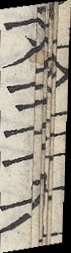文三十六
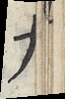六
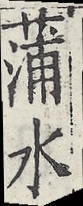蒲水
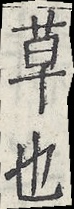草也
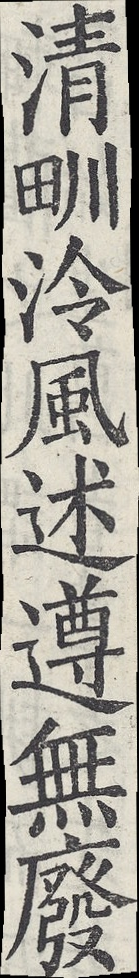清甽泠風述遵無廢
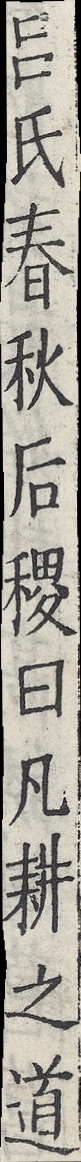呂氏春秋后稷曰凡耕之道
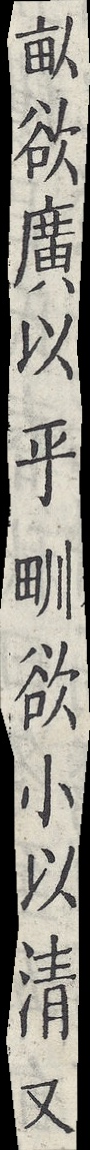畝欲廣以平甽欲小以清又
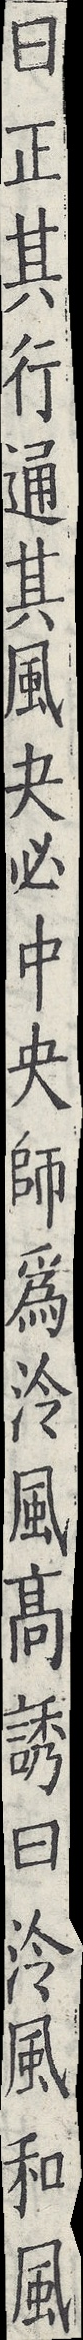曰正其行通其風夬必中央師為泠風高誘曰泠風和風
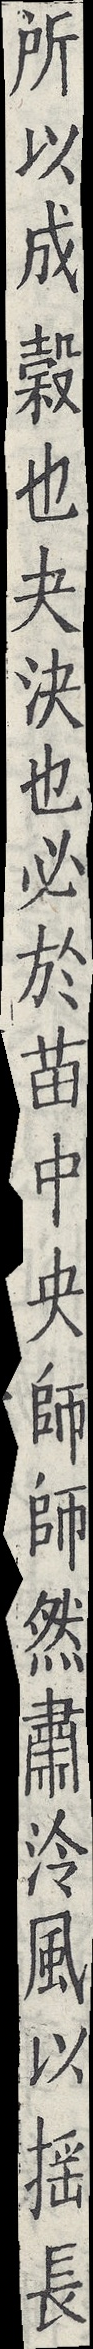所以成穀也夬決也必於苗中央師師然肅泠風以搖長
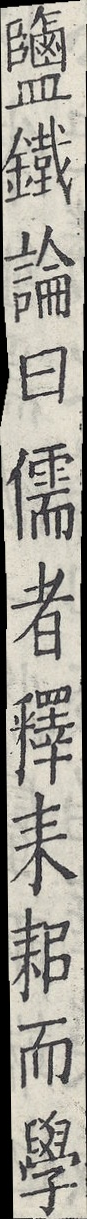鹽鐵論曰儒者釋耒耜而學
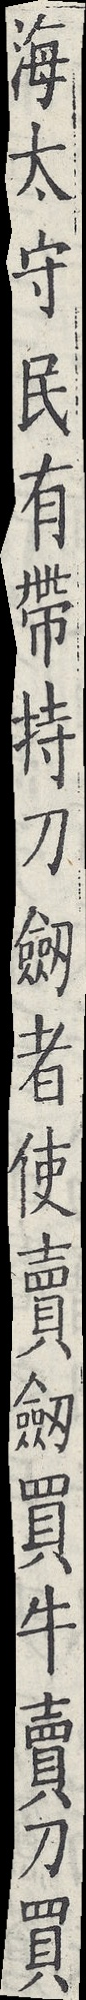海太守民有帶持刀劍者使賣劍買牛賣刀買
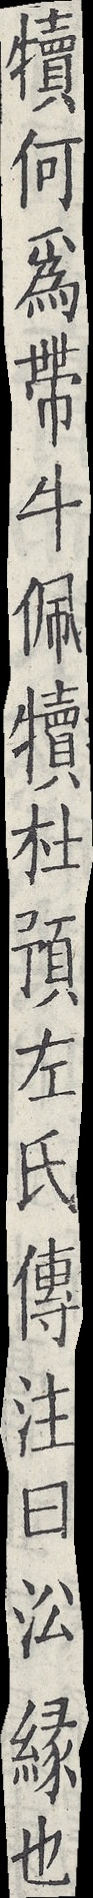犢何為帶牛佩犢杜預左氏傳注曰沿緣也
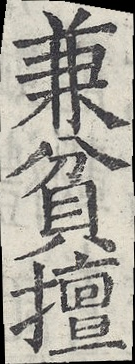兼貧擅
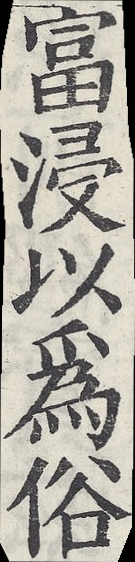富浸以為俗
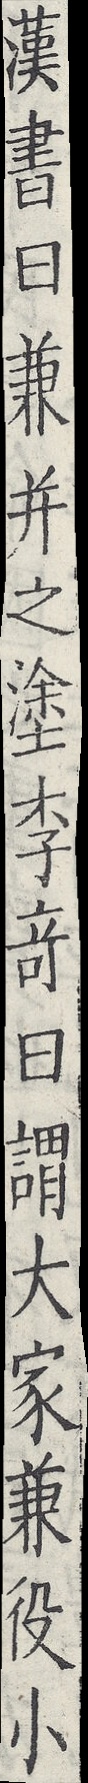漢書曰兼并之塗李奇曰謂大家兼役小
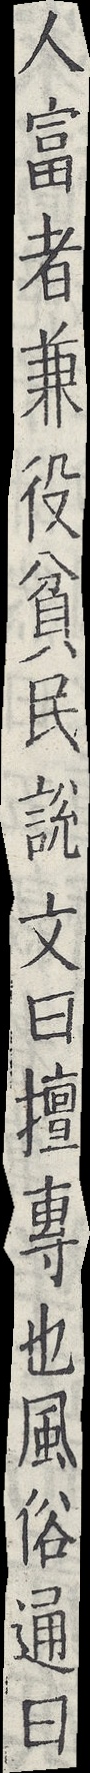人富者兼役貧民說文曰擅專也風俗通曰
